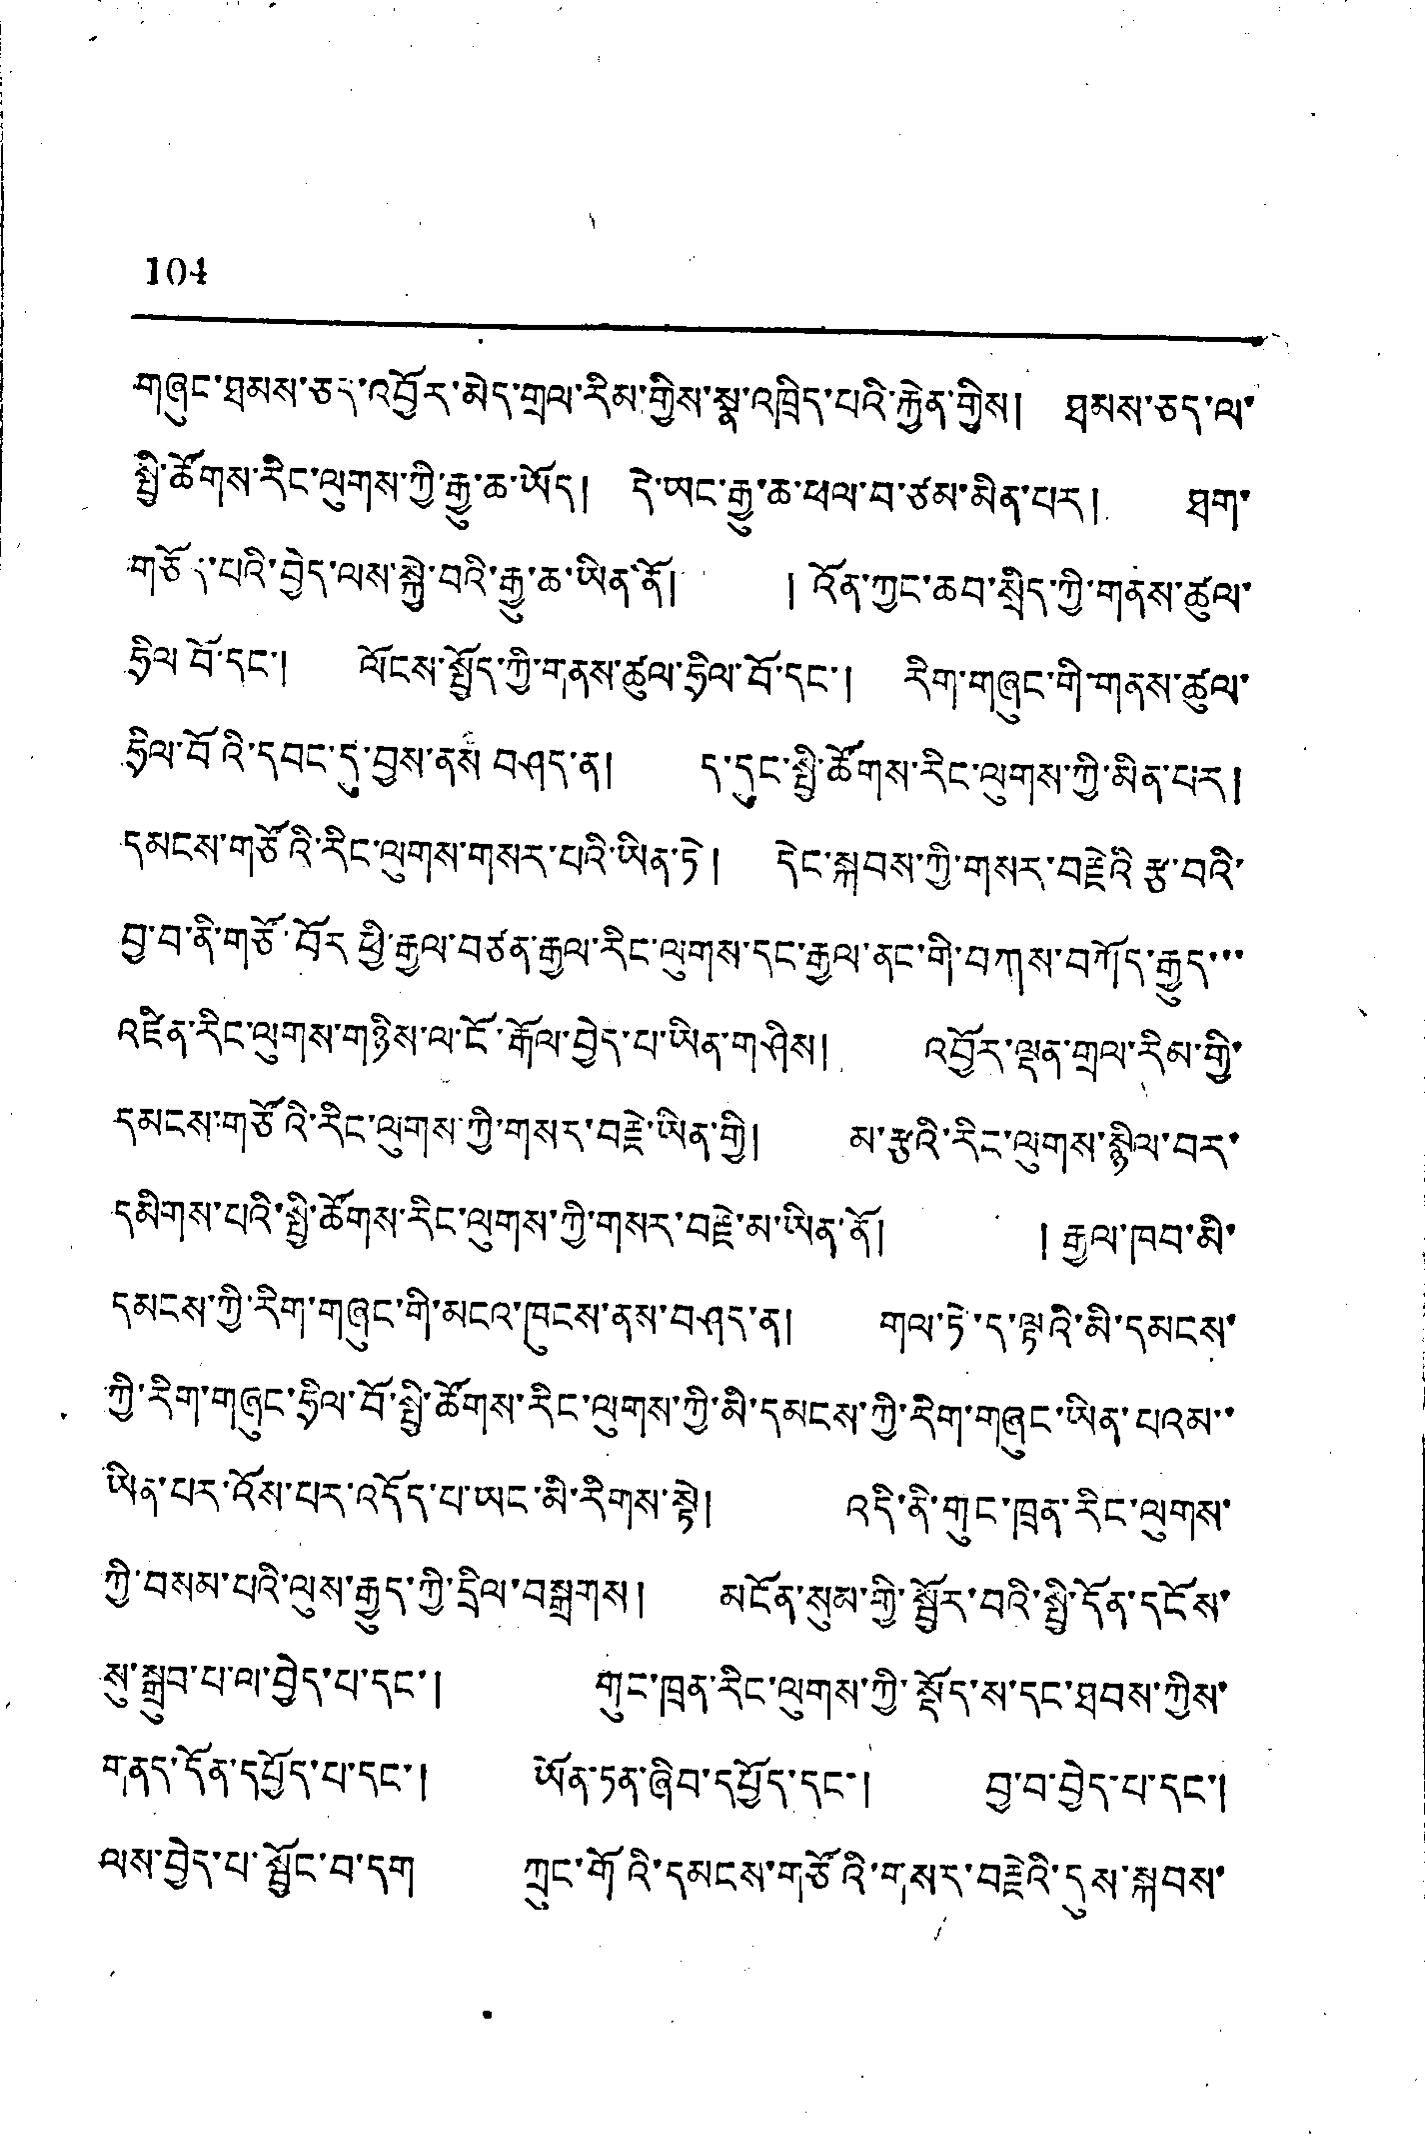104
གཞུང་ཐམས་ཅད་འབྱོར་མེད་གྲལ་རིམ་གྱིས་སྣ་འཁྲིད་པའི་རྐྱེན་གྱིས། ཐམས་ཅད་ལ་
སྤྱི་ཚོགས་རིང་ལུགས་ཀྱི་རྒྱ་ཆ་ཡོད། དེ་ཡང་རྒྱུ་ཆ་ཕལ་བ་ཙམ་མིན་པར། ཐག་
གཅོད་པའི་བྱེད་ལས་སྐྱེ་བའི་རྒྱུ་ཆ་ཡིན་ནོ། །འོན་ཀྱང་ཆབ་སྲིད་ཀྱི་གནས་ཚུལ་
ཧྲིལ་བོ་དང་། ལོངས་སྤྱོད་ཀྱི་གནས་ཚུལ་ཧྲིལ་བོ་དང་། རིག་གཞུང་གི་གནས་ཚུལ་
ཧྲིལ་བོའི་དབང་དུ་བྱས་ནས བཤད་ན། ད་དུང་སྤྱི་ཚོགས་རིང་ལུགས་ཀྱི་མིན་པར།
དམངས་གཙོའི་རིང་ལུགས་གསར་པའི་ཡིན་ཏེ། དེང་སྐབས་ཀྱི་གསར་བརྗེའི་རྩ་བའི་
བྱ་བ་ནི་གཙོ་བོར་ཕྱི་རྒྱལ་བཙན་རྒྱལ་རིང་ལུགས་དང་རྒྱལ་ནང་གི་བཀས་བཀོད་རྒྱུད་་་
འཛིན་རིང་ལུགས་གཉིས་ལ་ངོ་རྒོལ་བྱེད་པ་ཡིན་གཤིས། འབྱོར་ལྡན་གྲལ་རིམ་གྱི་
དམངས་གཙོའི་རིང་ལུགས་ཀྱི་གསར་བརྗེ་ཡིན་གྱི། མ་རྩའི་རིང་ལུགས་སྙིལ་བར་
དམིགས་པའི་སྤྱི་ཚོགས་རིང་ལུགས་ཀྱི་གསར་བརྗེ་མ་ཡིན་ནོ། །རྒྱལ་ཁབ་མི་
དམངས་ཀྱི་རིག་གཞུང་གི་མངའ་ཁུངས་ནས་བཤད་ན། གལ་ཏེ་ད་ལྟའི་མི་དམངས་
ཀྱི་རིག་གཞུང་ཧྲིལ་བོ་སྤྱི་ཚོགས་རིང་ལུགས་ཀྱི་མི་དམངས་ཀྱི་རིག་གཞུང་ཡིན་པའམ་་
ཡིན་པར་འོས་པར་འདོད་པ་ཡང་མི་རིགས་སྟེ། འདི་ནི་གུང་ཁྲན་རིང་ལུགས་
ཀྱི་བསམ་པའི་ལུས་རྒྱུད་ཀྱི་དྲིལ་བསྒྲགས། མངོན་སུམ་གྱི་སྦྱོར་བའི་སྤྱི་དོན་དངོས་
སུ་སྒྲུབ་པ་ལ་བྱེད་པ་དང་། གུང་ཁྲན་རིང་ལུགས་ཀྱི་སྡོད་ས་དང་ཐབས་ཀྱིས་
གནད་དོན་དཔྱོད་པ་དང་། ཡོན་ཏན་ཞིབ་དཔྱོད་དང་། བྱ་བ་བྱེད་པ་དང་།
ལས་བྱེད་པ་སྦྱོང་བ་དག ཀྲུང་གོའི་དམངས་གཙོའི་གསར་བརྗེའི་དུས་སྐབས་
